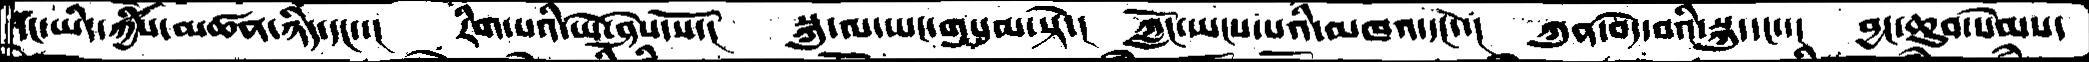དང་ཡིད་ཀྱིས་མཚན་ཉིད་དང་་།  རིག་པའི་ཡེ་ཤེས་སོ་།  སྐུ་ལ་ཡང་གསུམ་སྟེ་།  ཀློང་ཡངས་པའི་མཁའ་དང་་།  ཀུན་བདེ་བའི་སྐུ་དང་་།  བྱང་ཆུབ་སེམས་
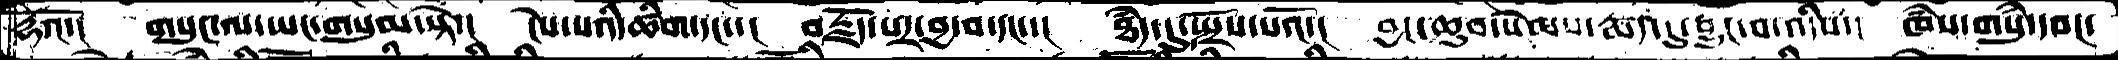རྡའོ་།  གསུང་ལ་ཡང་གསུམ་སྟེ་།  ངེས་པའི་ཚིག་དང་་།  བརྗོད་པར་བྱ་བ་དང་་།  ཐཾད་དུ་སྤྲོས་པའོ་།  བྱང་ཆུབ་སེམས་རྨད་དུ་བྱུང་བ་འདིས་།  ཁཾས་གསུཾ་དབང་
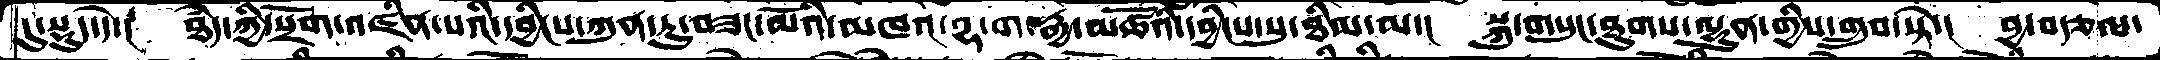དུ་སྡུད་དེ་།  ཐཾད་ཀྱི་སྲོག་འཛིན་པའི་དབྱིངས་ཀུན་ཏུ་བཟང་མོའི་མཁའ་བྷ་ག་རྒྱ་མཚོའི་དབྱིངས་སུ་ཐིམ་ལ་།  སྐུ་གསུང་ཐུགས་ལྷུན་གྱིས་གྲུབ་སྟེ་།  བྱ་བརྩལ་
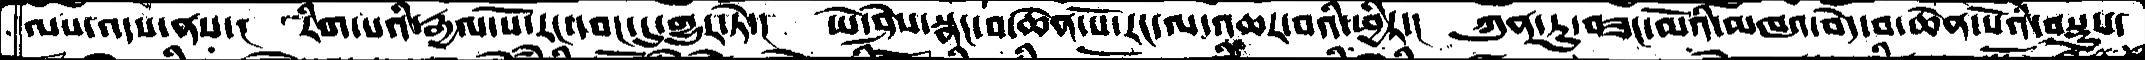ལས་འདས་ནས་།  རིག་པའི་རྒྱལ་པོ་རང་དབང་དུ་གྱུར་ཏེ་།  ཡེ་ཤེས་སྣང་བ་ཆེན་པོ་རང་ལ་འཆར་བའི་ཕྱིར་།  ཀུན་ཏུ་བཟང་མོའི་མཁའ་བདེ་བ་ཆེན་པོའི་བསྡུས་
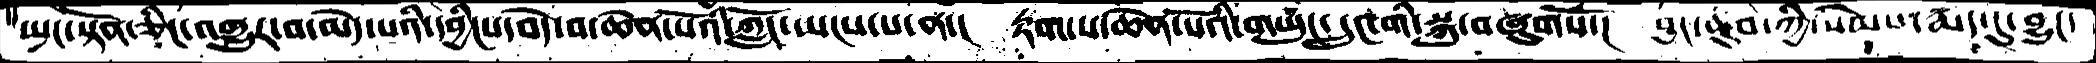སྤང་སྟོན་ཅིང་འགྱུར་བ་མེད་པའི་དབྱིངས་བདེ་བ་ཆེན་པོའི་ཀློང་ཡངས་པ་ན་།  རྟག་པ་ཆེན་པོའི་གཡུང་དྲུང་གི་སྐུ་བཞུགསོ་།  བྱང་ཆུབ་ཀྱི་སེམས་རྨད་དུ་བྱུང་
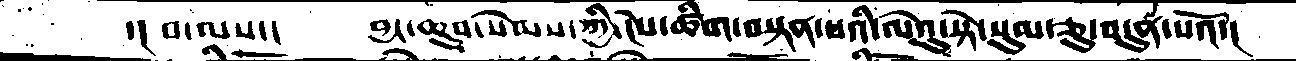་། བ་ལས་།  བྱང་ཆུབ་སེམས་ཀྱི་ངེས་ཚིག་བསྟན་པའི་ལེའུ་སྟེ་སུམ་ཅུ་བདུན་པའོ་།
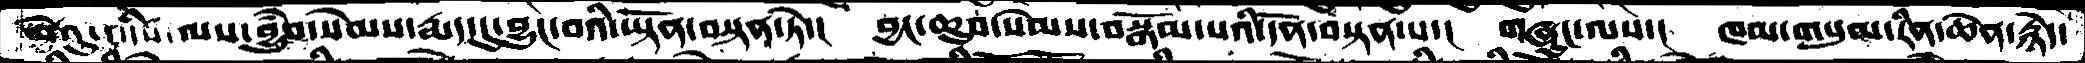ལེའུ་འདིས་ལས་བྱུཾབ་སེམས་རྨད་དུ་བྱུང་བའི་ཡྟོན་བསྟན་ཏེ་། བྱང་ཆུབ་སེམས་བསྒོམ་པའི་དོན་བསྟན་པ་། གཞུང་ལས་། ཁམ་གསུམ་རིན་ཆེན་རྙེད་
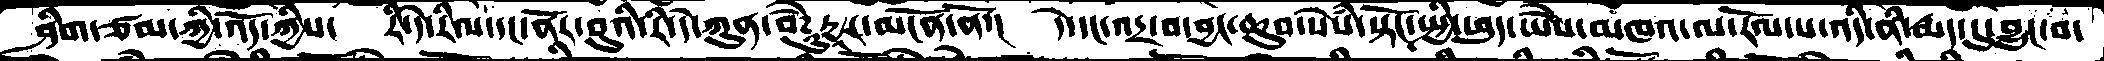ཤིག་ཙམ་ཀྱི་འོད་ཀྱིས་།  རི་དེ་རིལ་དང་ནོར་བུའི་རི་དེ་ཀུན་བཻཌཱུརྱར་མངོན་ནོ་།  དེ་དང་འདྲ་བ་བྱང་ཆུབ་སེཾས་སྟོང་སྤྱི་ཕུད་ཡཻས་མཁའ་ལ་རོལ་པ་འདི་ནི་རྨད་དུ་བྱུང་བ།
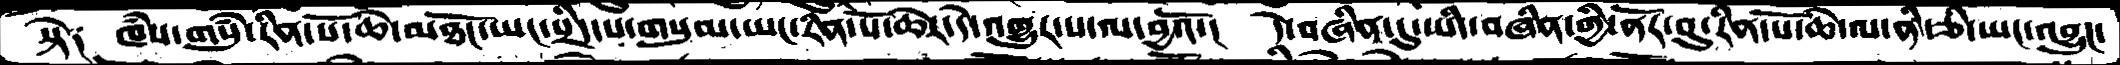སྟེ༑  ཁཾས་གསུཾ་རིན་པོ་ཆེ་མཐོང་ཡང་སྲིད་པ་གསུམ་ཡང་རིན་པོ་ཆེར་དེ་འགྱུར་པ་ལ་བྱའོ་།  དེ་བཞིན་དུ་ཡིད་བཞིན་གྱི་ནོར་བུ་རིན་པོ་ཆེ་ལ་ནི་ཅི་ཡང་འབྱུང་
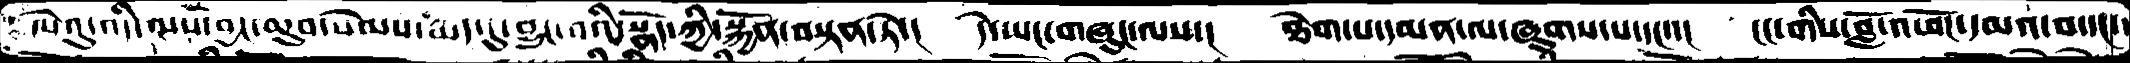ལེའུ་འདི་ལས་བྱང་ཆུབ་སེམས་རྨད་དུ་བྱུང་བའི་སྣོད་ཀྱི་སྐྱོན་བསྟན་ཏེ་།  དེ་ཡང་གཞུང་ལས་།  ཐེག་པ་དམན་ལ་ཞུགས་པ་དང་་།  ངང་གིས་བློ་འཕོང་དམའ་བ་དང་
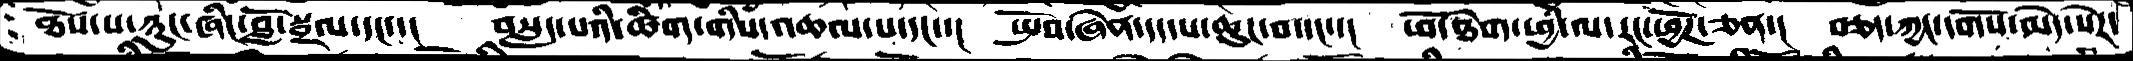ཐོས་པ་ཉུང་ཞིང་བློ་སྦྲལ་དང་་།  བསླད་པའི་ཚིག་གིས་འཆལ་པ་དང་་།  སྤོབ་ཞེན་དད་པ་ཆུང་བ་དང་་།  ཕོ་ཐེག་ཕྱི་ལ་་རང་ཕྱོཌ་ཅན་།  བཅད་ཀྱང་དགོས་མེད་སེར་
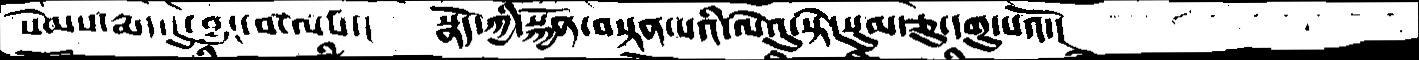སེམས་རྨད་དུ་བྱུང་བ་ལས་།  སྣོད་ཀྱི་སྐྱོན་བསྟན་པའི་ལེའུ་སྟེ་སུམ་ཅུ་དགུ་པའོ་།
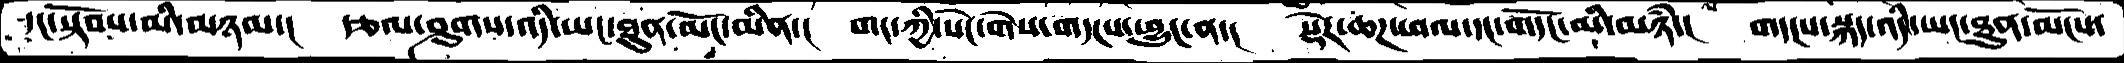དང་སྟོབས་མི་མཉམ་།  རྩལ་ཤུགས་འདི་ཡང་ཐུན་མོང་མིན་།  གང་ཀྱི་སེང་གེས་གདངས་ཕྱུང་ན་།  སྡེར་ཆཌ་ཕལ་དང་གདོང་མི་མཉཾ་།  གདངས་སྐད་འདི་ཡང་ཐུན་མོངས་
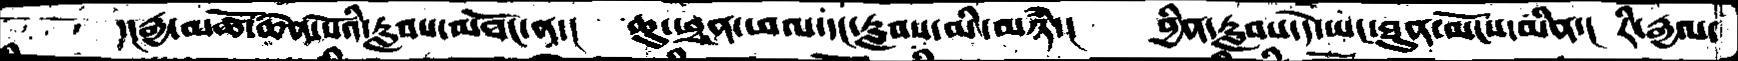དང་རྒྱ་མཚོ་ཆེན་པའི་རླབས་མཐོང་ན་།  ཆུ་ཕྲན་ཕལ་དང་རླབས་མི་མཉཾ་།  བྱིན་རླབས་དེ་ཡང་ཐུན་མོངས་མིན་།  རི་རྒྱལ་
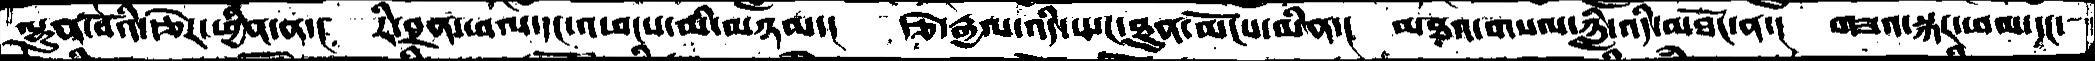ལྷུན་པོའི་རྩེར་ཕྱིན་ན་།  རི་བྲན་ཕལ་དང་འཕངས་མི་མཉམ་།  རྩེ་རྒྱལ་འདི་ཡང་ཐུན་མོངས་མིན་།  མཐའ་གསལ་ཉླི་འདི་མཐོང་ན་།  གཟའ་སྐར་ཕམ་དང་
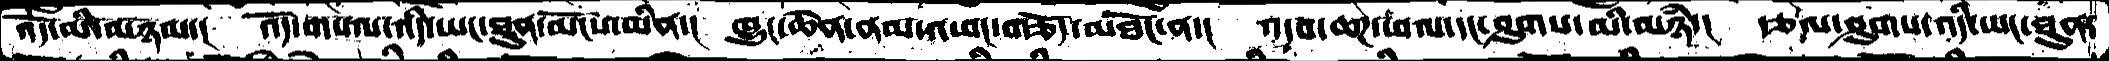འོད་མི་མཉམ་།  འོད་གསལ་འདི་ཡང་ཐུན་མོངས་མིན་།  ཁྱུང་ཆེན་ནམ་འཕང་གཅོད་མཐོང་ན་།  འདབ་ཆཌ་ཕལ་དང་ཤུགས་མི་མཉཾ་།  རྩལ་ཤུགས་འདི་ཡང་ཐུན་
